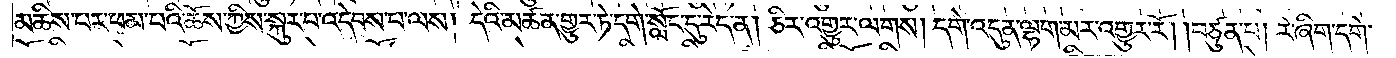མཆིས་པར་ཕམ་པའི་ཆོས་ཀྱིས་སྐུར་པ་འདེབས་པ་ལས། དེའི་མཚན་གྱུར་ཏེ་དགེ་སློང་དུ་རེད་ན། ཅིར་འགྱུར་ལགས། དགེ་འདུན་ལྷག་མར་འགྱུར་རོ། །བཙུན་པ། རེ་ཞིག་དགེ་
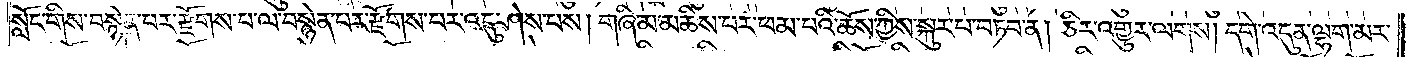སློང་གིས་བསྙེན་པར་རྫོགས་པ་ལ་བསྙེན་པར་རྫོགས་པར་འདུ་ཤེས་པས། གཞི་མ་མཆིས་པར་ཕམ་པའི་ཆོས་ཀྱིས་སྐུར་པ་བཏབ་ན། ཅིར་འགྱུར་ལགས། དགེ་འདུན་ལྷག་མར་
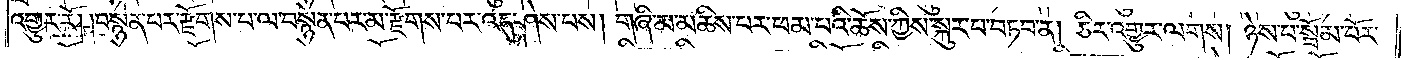འགྱུར་རོ། །བསྙེན་པར་རྫོགས་པ་ལ་བསྙེན་པར་མ་རྫོགས་པར་འདུ་ཤེས་པས། གཞི་མ་མཆིས་པར་ཕམ་པའི་ཆོས་ཀྱིས་སྐུར་པ་བཏབ་ན། ཅིར་འགྱུར་ལགས། ཉེས་པ་སྦོམ་པོར་
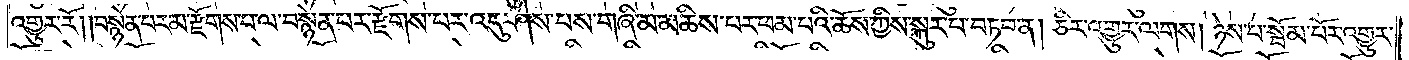འགྱུར་རོ། །བསྙེན་པར་མ་རྫོགས་པ་ལ་བསྙེན་པར་རྫོགས་པར་འདུ་ཤེས་པས་གཞི་མ་མཆིས་པར་ཕམ་པའི་ཆོས་ཀྱིས་སྐུར་པ་བཏབ་ན། ཅིར་འགྱུར་ལགས། ཉེས་པ་སྦོམ་པོར་འགྱུར་
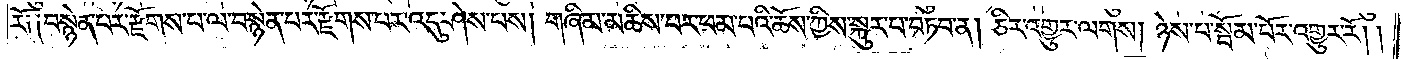རོ༑ ༑བསྙེན་པར་རྫོགས་པ་ལ་བསྙེན་པར་རྫོགས་པར་འདུ་ཤེས་པས། གཞི་མ་མཆིས་པར་ཕམ་པའི་ཆོས་ཀྱིས་སྐུར་པ་བཏབ་ན། ཅིར་འགྱུར་ལགས། ཉེས་པ་སྦོམ་པོར་འགྱུར་རོ། །
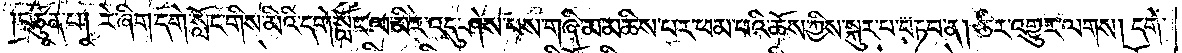།བཙུན་པ། རེ་ཞིག་དགེ་སློང་གིས་མིའི་དགེ་སློང་ལ་མིར་འདུ་ཤེས་པས་གཞི་མ་མཆིས་པར་ཕམ་པའི་ཆོས་ཀྱིས་སྐུར་པ་བཏབ་ན། ཅིར་འགྱུར་ལགས། དགེ་
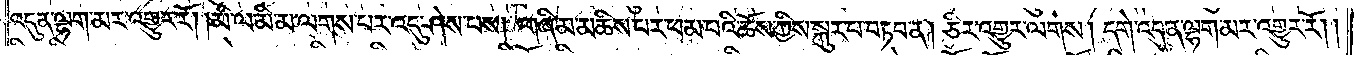འདུན་ལྷག་མར་འགྱུར་རོ། །མི་ལ་མི་མ་ལགས་པར་འདུ་ཤེས་པས། གཞི་མ་མཆིས་པར་ཕམ་པའི་ཆོས་ཀྱིས་སྐུར་པ་བཏབ་ན། ཅིར་འགྱུར་ལགས། དགེ་འདུན་ལྷག་མར་འགྱུར་རོ། །
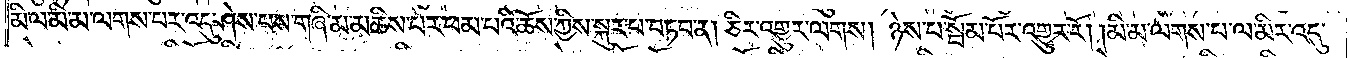མི་ལ་མི་མ་ལགས་པར་འདུ་ཤེས་པས་གཞི་མ་མཆིས་པར་ཕམ་པའི་ཆོས་ཀྱིས་སྐུར་པ་བཏབ་ན། ཅིར་འགྱུར་ལགས། ཉེས་པ་སྦོམ་པོར་འགྱུར་རོ། །མི་མ་ལགས་པ་ལ་མིར་འདུ་
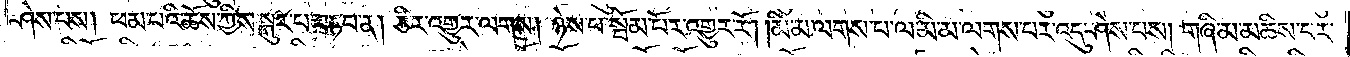ཤེས་པས། ཕམ་པའི་ཆོས་ཀྱིས་སྐུར་པ་བཏབ་ན། ཅིར་འགྱུར་ལགས། ཉེས་པ་སྦོམ་པོར་འགྱུར་རོ། །མི་མ་ལགས་པ་ལ་མི་མ་ལགས་པར་འདུ་ཤེས་པས། གཞི་མ་མཆིས་པར་
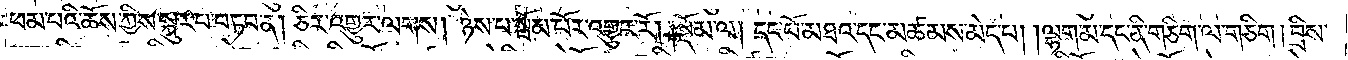ཕམ་པའི་ཆོས་ཀྱིས་སྐུར་པ་བཏབ་ན། ཅིར་འགྱུར་ལགས། ཉེས་པ་སྦོམ་པོར་འགྱུར་རོ། །སྡོམ་ལ། དང་པོ་མཐའ་དང་མཚམས་མེད་པ། །ལྷག་མ་དང་ནི་གཅིག་ལ་གཅིག །བྲིས་
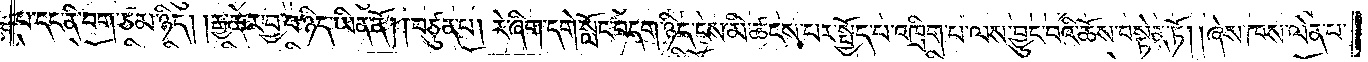པ་དང་ནི་བག་ཙམ་ཉིད། །རྒྱ་ཆེར་བྱ་བ་ཉིད་ཡིན་ནོ། །བཙུན་པ། རེ་ཞིག་དགེ་སློང་བདག་ཉིད་ངས་མི་ཚངས་པར་སྤྱོད་པ་འཁྲིག་པ་ལས་བྱུང་བའི་ཆོས་བསྟེན་ཏོ། །ཞེས་ཁས་ལེན་པ་
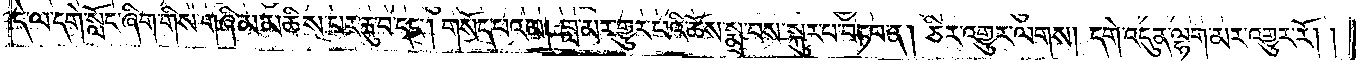དེ་ལ་དགེ་སློང་ཞིག་གིས་གཞི་མ་མཆིས་པར་རྐུ་བ་དང༌། གསོད་པའམ། བླ་མར་གྱུར་པའི་ཆོས་སྨྲ་བས་སྐུར་པ་བཏབ་ན། ཅིར་འགྱུར་ལགས། དགེ་འདུན་ལྷག་མར་འགྱུར་རོ། །
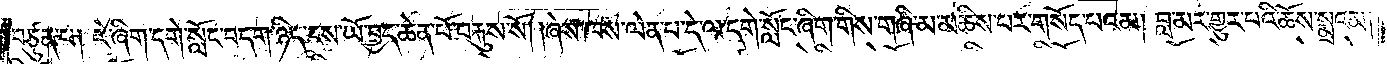བཙུན་པ། རེ་ཞིག་དགེ་སློང་བདག་ཉིད་ངས་ཡོ་བྱད་ཆེན་པོ་བརྐུས་སོ། །ཞེས་ཁས་ལེན་པ་དེ་ལ་དགེ་སློང་ཞིག་གིས་གཞི་མ་མཆིས་པར་གསོད་པའམ། བླ་མར་གྱུར་པའི་ཆོས་སྨྲའམ།
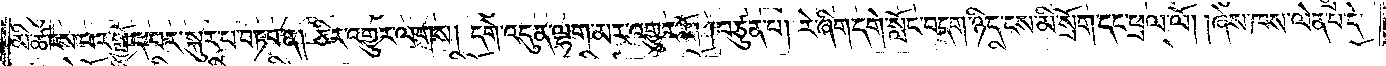མི་ཚངས་པར་སྤྱོད་པར་སྐུར་པ་བཏབ་ན། ཅིར་འགྱུར་ལགས། དགེ་འདུན་ལྷག་མར་འགྱུར་རོ། །བཙུན་པ། རེ་ཞིག་དགེ་སློང་བདག་ཉིད་ངས་མི་སྲོག་དང་ཕྲལ་ལོ། །ཞེས་ཁས་ལེན་པ་དེ་
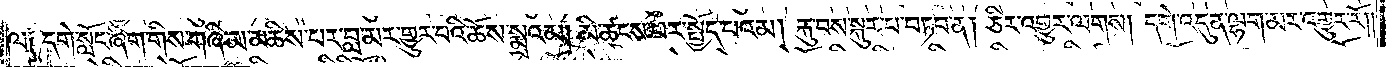ལ༑ དགེ་སློང་ཞིག་གིས་གཞི་མ་མཆིས་པར་བླ་མར་གྱུར་པའི་ཆོས་སྨྲའམ། མི་ཚངས་པར་སྤྱོད་པའམ། རྐུ་བས་སྐུར་པ་བཏབ་ན། ཅིར་འགྱུར་ལགས། དགེ་འདུན་ལྷག་མར་འགྱུར་རོ༎
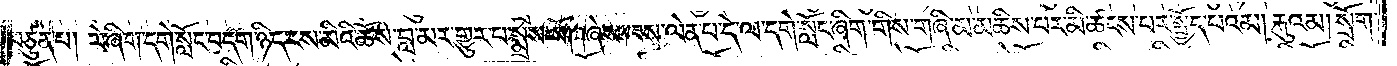བཙུན་པ། རེ་ཞིག་དགེ་སློང་བདག་ཉིད་ངས་མིའི་ཆོས་བླ་མར་གྱུར་པ་སྨྲས་སོ། །ཞེས་ཁས་ལེན་པ་དེ་ལ་དགེ་སློང་ཞིག་གིས་གཞི་མ་མཆིས་པར་མི་ཚངས་པར་སྤྱོད་པའམ། རྐུའམ། སྲོག་
